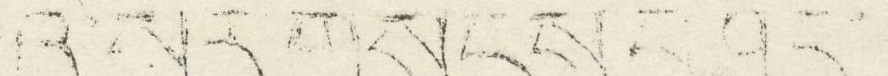འི་སར གསུངས བཤད་
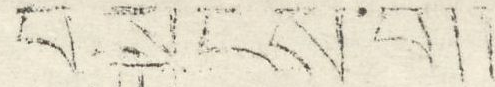བསྐྱངས་བ།།
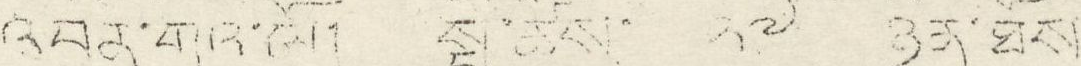འབན་གའ་ལོ། སྤྱི་ཚེས་ ༢༦ ཉིན་ཐོས་
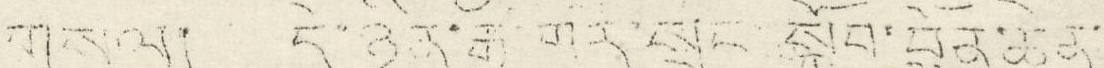གསལ། དེ་ཉིན་རྒྱ་གར་སྲུང སྐྱོབ་བློན་ཆེན་
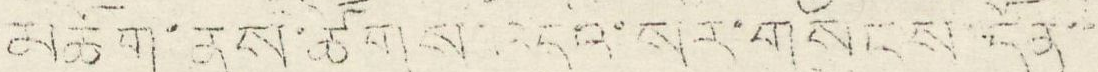མཆོག་ནས་ཚོགས་འདུའི་སེར་གསུངས་དོན་་
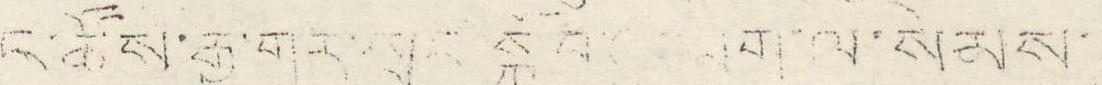ང་ཚོས་རྒྱ་གར་སྲུང་སྐྱོབ་  ཐོག་ལ་སེམས་
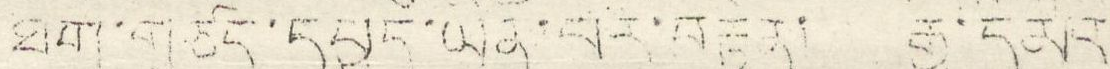ཐག་གཙང་དཔྱད་ཡིན་པོར་བརྟེན། རྒྱ་དམར
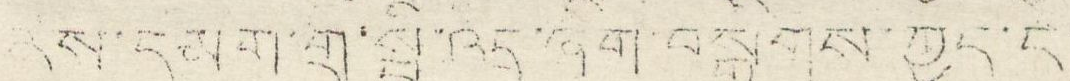ནས་དམག་གྲ་སྤྱི་འདྲ་ཞིག་བསྒྲིགས་ཀྱང་ད་
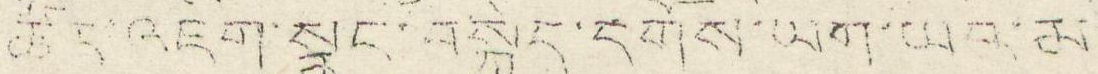ཚོད་འཇིག་སྣང་བསྐྱེད་དགོས་ཡག་ཡའི་མ
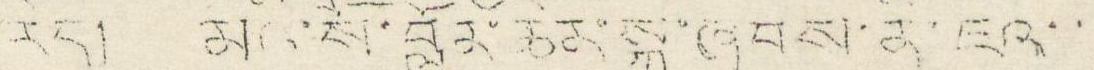རེད། མའི་སོ་བློན་ཆེན་སྐུ་ཞབས་ནི་ཇའ་་
